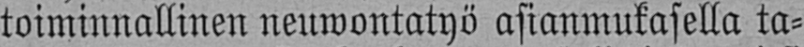toiminnallinen neuwontatyö asianmukasella ta-
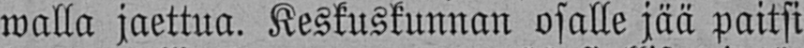walla jaettua. Keskuskunnan osalle jää paitsi
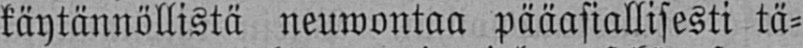käytännöllistä neuwontaa pääasiallisesti tä-
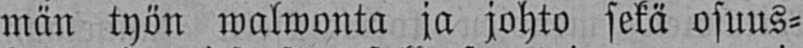män työn walwonta ja johto sekä osuus-
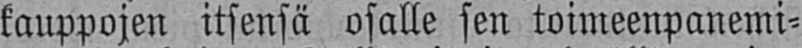kauppojen itsensä osalle sen toimeenpanemi-
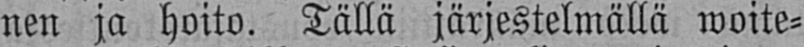nen ja hoito. Tällä järjestelmällä woite-
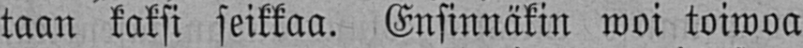taan kaksi seikkaa. Ensinnäkin woi toiwoa
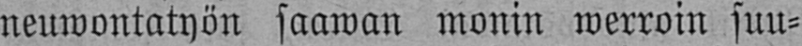neuwontatyön saawan monin werroin suu-
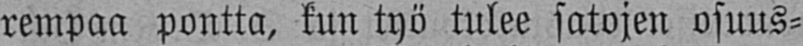rempaa pontta, kuu työ tulee satojen osuus-
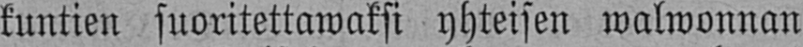kuntien suoritettawaksi yhteisen walwonnan
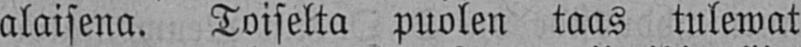alaisena. Toiselta puolen taas tulewat
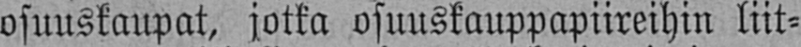osuuskaupat, jotka osuuskauppapiireihin liit-
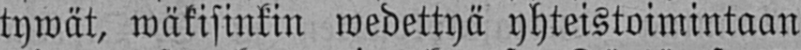tywät, wäkisinkin wedettyä yhteistoimintaan
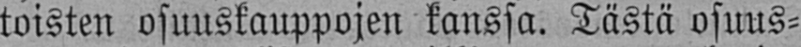toisten osuuskauppojen kanssa. Tästä osuus-
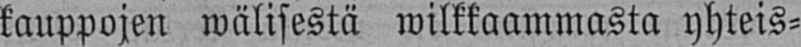kauppojen wälisestä wilkkaammasta yhteis-
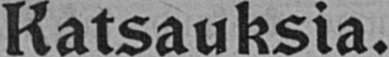Katsauksia.
